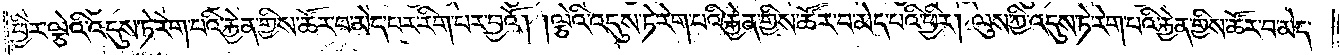ཕྱིར་ལྕེའི་འདུས་ཏེ་རེག་པའི་རྐྱེན་གྱིས་ཚོར་བ་མེད་པར་རིག་པར་བྱའོ། །ལྕེའི་འདུས་ཏེ་རེག་པའི་རྐྱེན་གྱིས་ཚོར་བ་མེད་པའི་ཕྱིར། ལུས་ཀྱི་འདུས་ཏེ་རེག་པའི་རྐྱེན་གྱིས་ཚོར་བ་མེད་
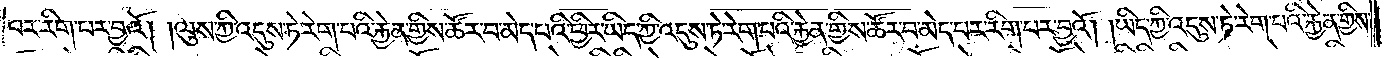པར་རིག་པར་བྱའོ། །ལུས་ཀྱི་འདུས་ཏེ་རེག་པའི་རྐྱེན་གྱིས་ཚོར་བ་མེད་པའི་ཕྱིར་ཡིད་ཀྱི་འདུས་ཏེ་རེག་པའི་རྐྱེན་གྱིས་ཚོར་བ་མེད་པར་རིག་པར་བྱའོ། །ཡིད་ཀྱི་འདུས་ཏེ་རེག་པའི་རྐྱེན་གྱིས་
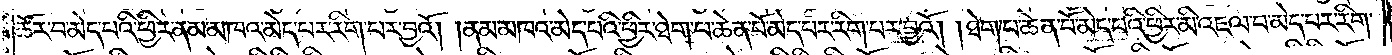ཚོར་བ་མེད་པའི་ཕྱིར་ནམ་མཁའ་མེད་པར་རིག་པར་བྱའོ། །ནམ་མཁའ་མེད་པའི་ཕྱིར་ཐེག་པ་ཆེན་པོ་མེད་པར་རིག་པར་བྱའོ། །ཐེག་པ་ཆེན་པོ་མེད་པའི་ཕྱིར་མི་འཇལ་བ་མེད་པར་རིག་
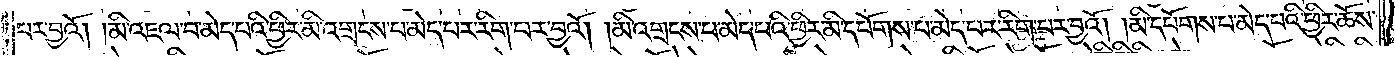པར་བྱའོ། །མི་འཇལ་བ་མེད་པའི་ཕྱིར་མི་འགྲངས་པ་མེད་པར་རིག་པར་བྱའོ། །མི་འགྲངས་པ་མེད་པའི་ཕྱིར་མི་དཔོགས་པ་མེད་པར་རིག་པར་བྱའོ། །མི་དཔོགས་པ་མེད་པའི་ཕྱིར་ཆོས་
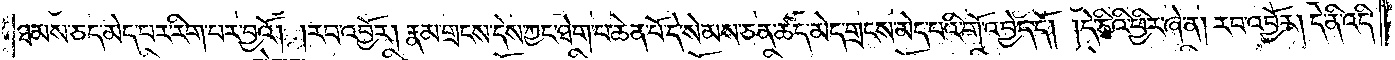ཐམས་ཅད་མེད་པར་རིག་པར་བྱའོ། །རབ་འབྱོར། རྣམ་གྲངས་དེས་ཀྱང་ཐེག་པ་ཆེན་པོ་དེ་སེམས་ཅན་ཚད་མེད་གྲངས་མེད་པའི་གོ་འབྱེད་དོ། །དེ་ཅིའི་ཕྱིར་ཞེ་ན། རབ་འབྱོར། དེ་ནི་འདི་
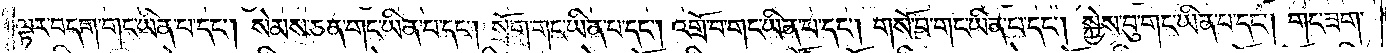ལྟར་བདག་གང་ཡིན་པ་དང༌། སེམས་ཅན་གང་ཡིན་པ་དང༌། སྲོག་གང་ཡིན་པ་དང༌། འགྲོ་བ་གང་ཡིན་པ་དང༌། གསོ་བ་གང་ཡིན་པ་དང༌། སྐྱེས་བ་གང་ཡིན་པ་དང༌། གང་ཟག་
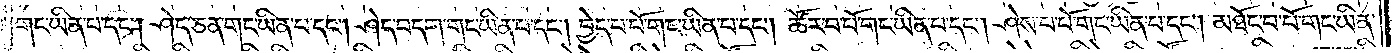གང་ཡིན་པ་དང༌། ཤེད་ཅན་གང་ཡིན་པ་དང༌། ཤེད་བདག་གང་ཡིན་པ་དང༌། བྱེད་པ་པོ་གང་ཡིན་པ་དང༌། ཚོར་བ་པོ་གང་ཡིན་པ་དང༌། ཤེས་པ་པོ་གང་ཡིན་པ་དང༌། མཐོང་བ་པོ་གང་ཡིན་
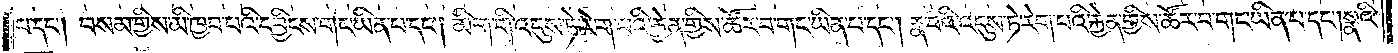པ་དང༌། བསམ་གྱིས་མི་ཁྱབ་པའི་དབྱིངས་གང་ཡིན་པ་དང༌། མིག་གི་འདུས་ཏེ་རེག་པའི་རྐྱེན་གྱིས་ཚོར་བ་གང་ཡིན་པ་དང༌། རྣ་བའི་འདུས་ཏེ་རེག་པའི་རྐྱེན་གྱིས་ཚོར་བ་གང་ཡིན་པ་དང༌། སྣའི་
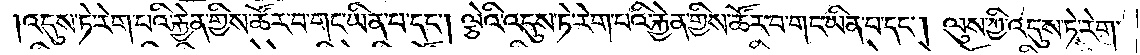འདུས་ཏེ་རེག་པའི་རྐྱེན་གྱིས་ཚོར་བ་གང་ཡིན་པ་དང༌། ལྕེའི་འདུས་ཏེ་རེག་པའི་རྐྱེན་གྱིས་ཚོར་བ་གང་ཡིན་པ་དང༌། ལུས་ཀྱི་འདུས་ཏེ་རེག་
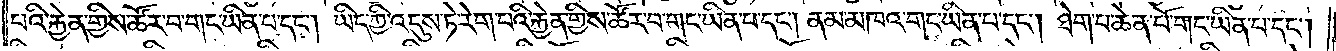པའི་རྐྱེན་གྱིས་ཚོར་བ་གང་ཡིན་པ་དང༌། ཡིད་ཀྱི་འདུས་ཏེ་རེག་པའི་རྐྱེན་གྱིས་ཚོར་བ་གང་ཡིན་པ་དང༌། ནམ་མཁའ་གང་ཡིན་པ་དང༌། ཐེག་པ་ཆེན་པོ་གང་ཡིན་པ་དང༌།
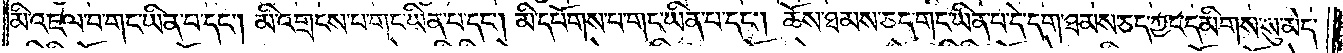མི་འཇལ་བ་གང་ཡིན་པ་དང༌། མི་འགྲངས་པ་གང་ཡིན་པ་དང༌། མི་དཔོགས་པ་གང་ཡིན་པ་དང༌། ཆོས་ཐམས་ཅད་གང་ཡིན་པ་དེ་དག་ཐམས་ཅད་ཀྱང་དམིགས་སུ་མེད་
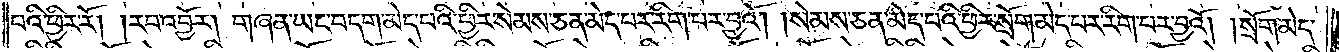པའི་ཕྱིར་རོ། །རབ་འབྱོར། གཞན་ཡང་བདག་མེད་པའི་ཕྱིར་སེམས་ཅན་མེད་པར་རིག་པར་བྱའོ། །སེམས་ཅན་མེད་པའི་ཕྱིར་སྲོག་མེད་པར་རིག་པར་བྱའོ། །སྲོག་མེད་
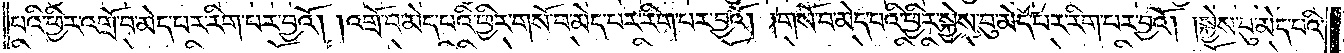པའི་ཕྱིར་འགྲོ་བ་མེད་པར་རིག་པར་བྱའོ། །འགྲོ་བ་མེད་པའི་ཕྱིར་གསོ་བ་མེད་པར་རིག་པར་བྱའོ། །གསོ་བ་མེད་པའི་ཕྱིར་སྐྱེས་བུ་མེད་པར་རིག་པར་བྱའོ། །སྐྱེས་བུ་མེད་པའི་
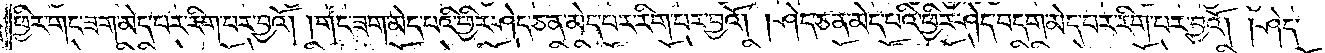ཕྱིར་གང་ཟག་མེད་པར་རིག་པར་བྱའོ། །གང་ཟག་མེད་པའི་ཕྱིར་ཤེད་ཅན་མེད་པར་རིག་པར་བྱའོ། །ཤེད་ཅན་མེད་པའི་ཕྱིར་ཤེད་བདག་མེད་པར་རིག་པར་བྱའོ། །ཤེད་
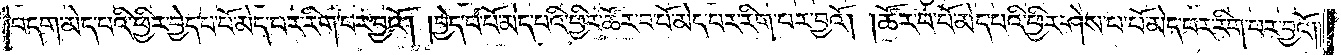བདག་མེད་པའི་ཕྱིར་བྱེད་པ་པོ་མེད་པར་རིག་པར་བྱའོ། །བྱེད་པ་པ་མེད་པའི་ཕྱིར་ཚོར་བ་པོ་མེད་པར་རིག་པར་བྱའོ། །ཚོར་བ་པོ་མེད་པའི་ཕྱིར་ཤེས་པ་པོ་མེད་པར་རིག་པར་བྱའོ། །
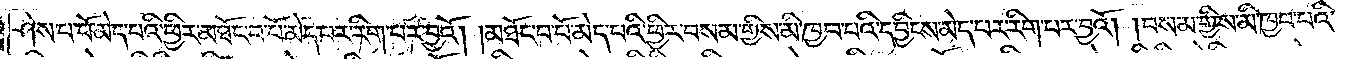ཤེས་པ་པོ་མེད་པའི་ཕྱིར་མཐོང་བ་པོ་མེད་པར་རིག་པར་བྱའོ། །མཐོང་བ་པོ་མེད་པའི་ཕྱིར་བསམ་གྱིས་མི་ཁྱབ་པའི་དབྱིངས་མེད་པར་རིག་པར་བྱའོ། །བསམ་གྱིས་མི་ཁྱབ་པའི་
